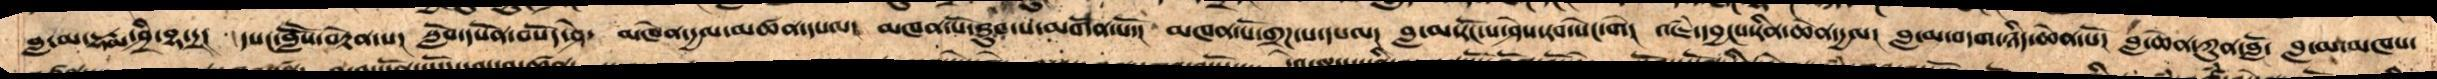བླ་མ་དྷརྨ་ཤྲཱི་བྷ་དྲ། དཔང་བླཽས་བརྟེན་པ། སློབ་དཔོན་བསོད་ཤེ་ མཁེན་ཆེན་དྱལ་མཚན་དཔལ། མཁན་པོ་ཐུབ་པ་མགོན་པོ་། མཁན་པོ་གྲཌ་པ་དཔལ། བླ་མ་རོང་པ་ཤེས་རབ་སེང་གེ། འཇཾ་དབྱངས་རིན་ཆེན་དྱལ། བླ་མ་བདག་ཉིད་ཆེན་པོ། བླ་ཆེན་ཀུན་བློ། བླ་མ་མཁས་
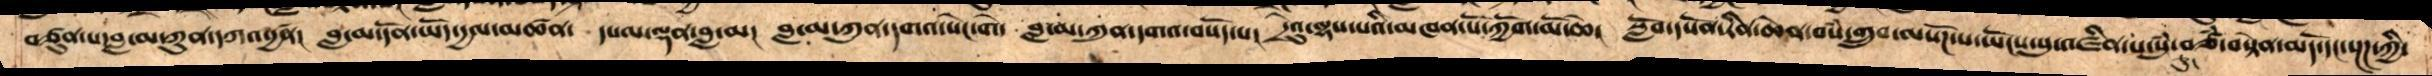བཙུན་པ་བླ་མ་ཀུན་དགའ་དྱཚན། བླ་མ་དོན་ཡོད་དྱལ་མཚན། དཔལ་ལྡན་བླ་མ། བླ་མ་ཀུན་དགའ་སེང་གེ། བླ་མ་ཀུན་དགའ་བསོད་པ། དྲེའུ་ལྷས་པའི་མཁན་པོ་ཀྱོག་མོ་ཆེ། སློབ་དཔོན་རིན་ཆེན་བསཾ་གྲུབ་ལསོཌ་པ་ཡོངས་སུ་འཛིན་པ་སུཾ་ཅུ་བཙཾ་བསྟེན་མདོ་དང་སྔཌ་ཀྱི་
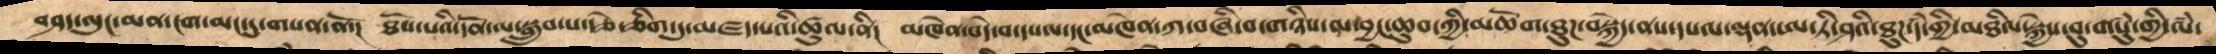བཤད་ལུང་མན་ངག་མང་དུ་གསན་ནོ་།  ཐོས་པའི་དོན་ལ་སྒྲུབ་པ་རྩེ་ཅིག་དུ་མཛད་པའི་ཚུལ་ནི།  མཁེན་བདེ་བ་དཔལ་དང་མཁེན་ཀ་བཞི་བ་གཉིས་ལ་བྱང་ཆུབ་ཀྱི་མཆོག་ཐུཌ་བསྐྱེད་ནས་དཔལ་ལྡན་ཨ་ཏི་ཤའི་ཐུཌ་དཾ་གྱི་མཐིལ་སྐྱེས་བུ་གསུཾ་གྱི་ལཾ་
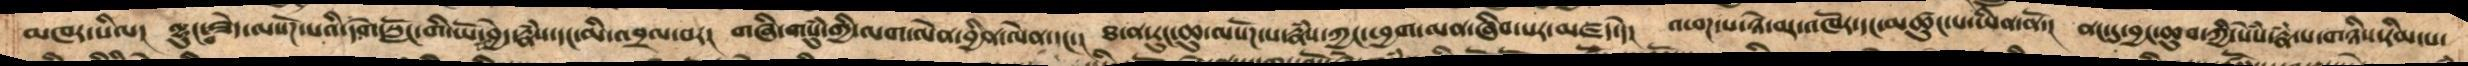མཁར་སིལ། ལྷུང་བཟེད་ལསོཌ་པའི་དགེ་སློང་གི་ཡོ་བྱེད་རྣཾས་དང་མི་འབྲལ་བར། གཞི་གསུཾ་གྱི་ལག་ལེན་བྱིན་ལེན་དང་། ཐ་ན་རུང་ཆུ་ལསོཌ་པ་རྣཾས་ཀྱང་ཕྱག་ལན་ཞིབ་པར་མཛད་དེ།  འཕཌ་པ་ཉེ་བར་འཁོར་དང་མཚུངས་པ་ཡིན་ནོ། ནང་དུ་བྱང་ཆུབ་ཀྱི་སེཾས་རྣཾ་པ་གཉིས་རིམ་པ་
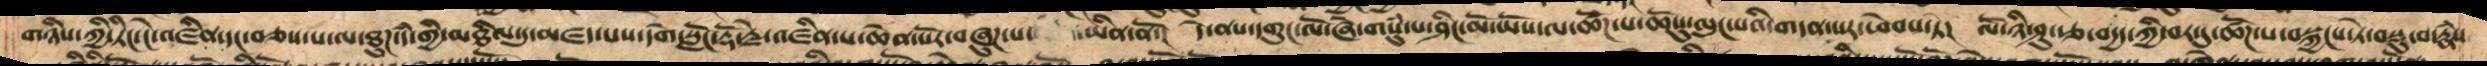གཉིས་ཀྱི་ཏིང་ངེ་འཛིན་དང་བཅས་པ་ལ་ཐུཌ་དཾ་གྱི་མཐིལ་དུ་མཛད་པས་དགེ་སློང་རྡོ་རྗེ་འཛིན་པ་ཆེན་པོར་བཞུཌ་པ་ཡིན་ནོ།  དེ་ནས་དགུང་ལོ་ཞེ་གསུཾ་པ་ཤིང་མོ་ཡོས་་ལ་ཚོཌ་པ་ཆོསུ་ལུང་པའི་གདན་་སར་ཕེབས་ཏེ།  ལོ་ཉི་ཤུ་རྩ་བདྱད་ཀྱི་བར་དུ་ཚོཌ་པ་བསྐྱངས་ཏེ་བསྡུ་བ་རྣཾས
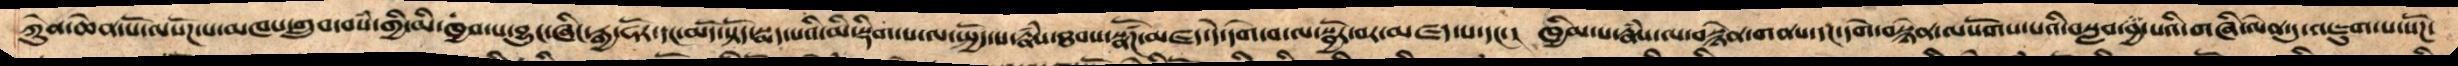ཀེུན་ཆེན་པོ་ལསོཌ་པ་མཁས་གྲུབ་བསཾ་གྱི་མི་ཁྱབ་པ་བྱུང་ཞིང་དྱ་ཧོར་དང་མདོ་སྟོད་སྨད་པའི་མི་སྡིག་པ་ལ་སྤྱོད་པ་རྣཾས་ཐབས་སྣཚོཌ་མཛད་དེ་དགེ་བ་ལ་སྦྱོར་བར་མཛད་པ་དང་།  ཁྱིམ་པ་རྣཾས་ལ་བསྙེན་གནས་དང་དགེ་བསྙེན་ལསོགས་པའི་བསླབ་བྱ་པའི་གཞི་ལེན་དུ་འཇུག་པ་སོཌ་་
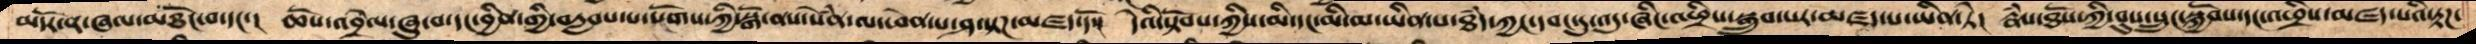མདོར་ན་ཞལ་མཐོང་བ་དང་།  ཆོས་འབྲེལ་ཞུ་བ་དང་བྱིན་གྱི་བརླབས་པ་སོགས་ཀྱི་སྒོ་ནས་སེནཾ་ལ་ཕེན་པ་ཤ་སྟཌ་མཛད་དོ་།  དེའི་སྟོབས་ཀྱིས་མི་དང་མི་མ་ཡིན་པ་ཐཾད་ཀྱང་དབང་དུ་འདུ་ཞིང་འཕྲིས་སྒྲུབ་པར་མཛད་པ་ཡིན་ཏེ།  རྣཾས་ཐོས་ཀྱི་བུས་སྲུང་སྐྱོབས་དང་འཕྲིས་མཛད་པའི་རྟཌ་
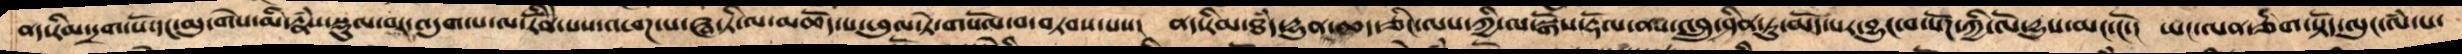ནད་རིམ་དྲག་པོ་དང་མུ་གེས་མི་རྣཾས་སྡུལ་བར་འདུག་པ་ལ་རིནོེ་པས་འཕཌ་པ་ཝ་ཏི་ལ་མཆོད་པ་ཕུལ་ཏེ་གསོལ་བ་བཏབས་པས།  ནད་རིམ་ཐཾད་དྱུན་ཆད་ཅིང་ལས་ཀྱི་མ་སྒོཾས་རྡོལ་ནས་འབྲུ་ཤིན་ཏུ་མོད་པར་བྱུང་བ་སོཌ་ཀྱི་ལོ་དྱུས་མང་ངོ་།  ཡང་ལན་ཅིག་སྟོད་ལུང་ལཾ་པ་
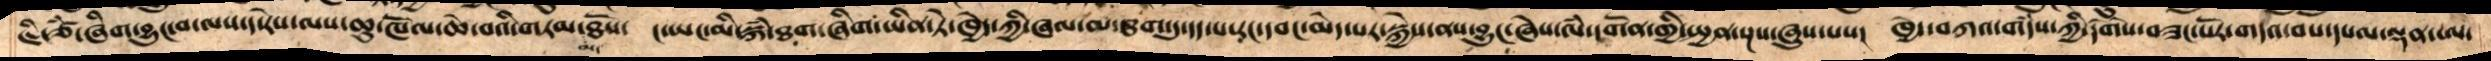ཇི་ཙཾ་ཞིག་བྱུང་བ་ལས་ད་རེས་ལས་ཆུ་ཁོལ་ཆེ་བའི་གཏམ་ཐོས་  ང་ཡང་མི་སྐཾ་ཐག་ཞིག་ཡིན་ཏེ་ཁྱེད་ཀྱི་ཞལ་མ་ཐག་དུ་དད་པ་རང་དབང་མེད་པར་སྐྱེས་ནས་བྱུང་ཞེས་ལཾ་དགོན་གྱི་སྤྱན་སྔས་ཞུས་པས།  ཁྱེད་བཀའ་གདཾས་ཀྱི་དགཻས་བཟང་པོར་གདའ་བས་དཔལ་ལྡན་ཨ་
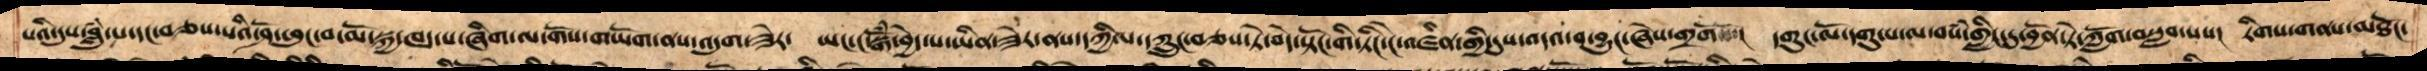པའི་དུས་བླུཾ་པ་དང་བཅས་པའི་ཤོ་ཕུང་བ་མོ་སྐྱ་ཁད་པ་ཞིག་ལ་གོས་གཡོག་ནས་འདུག་ཟེར་  ཡང་ང་སྒོཾ་བྱེད་པ་ཡིན་ཟེར་ནས་དཀྱིལ་དཀྲུང་བཅས་ཏེ་བདེ་སྟོང་གི་ཏིང་ངེ་འཛིན་གྱི་དུས་འདའ་བ་བྱུང་ཞེས་གྲགསོ་།  དགུང་མོ་དགུ་པ་ལ་བསཾ་གླིང་དུ་བྱོན་ཏེ་ཀློག་བསླབ་པས།  རིགས་གནས་མཐོང་
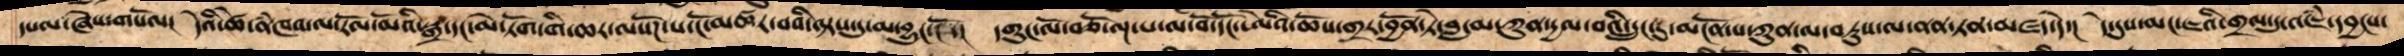དཔལ་ཞེས་གསོལ།  དེའི་ཚེ་ནཾཁའ་ལ་རོལ་མོའི་སྒྲ་དང་མེ་ཏོག་གི་ཆར་ལསོཌ་པ་ངོ་མཚར་བའི་ལྟས་དུ་མ་བྱུང་ངོ་།  དགུང་ལོ་བཅོ་ལྔ་པ་ལ་བོ་དོང་ཨེའི་ཆོས་གྲར་བྱོན་ཏེ་བླ་མ་ཀུན་དྱལ་བའི་དྲུང་དུ་མངོན་པ་ཀུན་ལ་བཏུས་ལ་ནན་ཏན་མཛད་དེ།  དེ་དུས་མང་ཇའི་གྲལ་དུ་འཇཾ་དབྱངས་
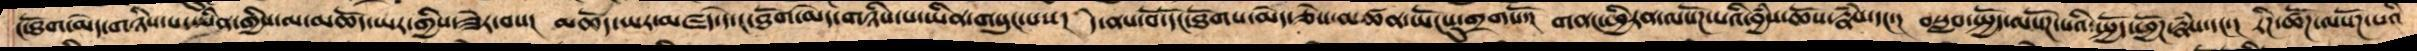ང་ཐོག་མེད་གཉིས་པ་ཡིན་གྱིས་ལ་མཆོད་ཡར་གྱིས་ཟེར་བས།  མཆོད་ཡར་མཛད་དེ་ང་ཐོག་མེད་གཉིས་པ་ཡིན་གསུང་པས།  དེ་ནས་བོ་དོང་ཐོགས་མེད་ཅེས་མཚན་ཡོངསུ་གྲགསོ་།  གནང་ཕྱིརན་ལསོཌ་པའི་བྱཾས་ཆོས་རྣཾས་དང་།  བསླབ་སྤྱོད་ལསོཌ་པའི་སྤྱོད་ཕྱོཌ་རྣཾས་དང་།  རིཌ་ཚོཌ་ལསོཌ་པའི
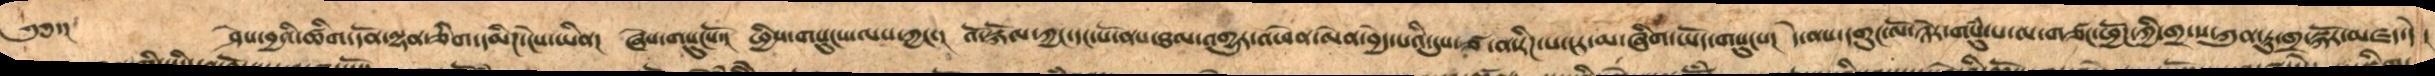༄༅་།   ཤེས་བྱའི་ཚིག་དོན་ལྷན་ཅིག་དམིཌ་ངེས་ཡིན།  ཞེས་གསུངསོ།  ཕྱིས་གསུངས་ལས་ཀྱང་།  འོ་སྐོལ་ཀྱང་དང་པོ་ནས་ཐལ་འགྱུར་འཕེན་ལེན་བྱེད་པའི་དུས་ཙ་ན་རིཌ་པ་ངར་མ་ཞིག་ཡོད་གསུངས།  དེ་ནས་དགུང་ལོ་ཉེར་གསུཾ་པ་ལ་གཙང་ཕྱོཌ་ཀྱི་གྲ་པ་ཀུན་ཏུ་གྲ་སྐོར་མཛད་དེ་
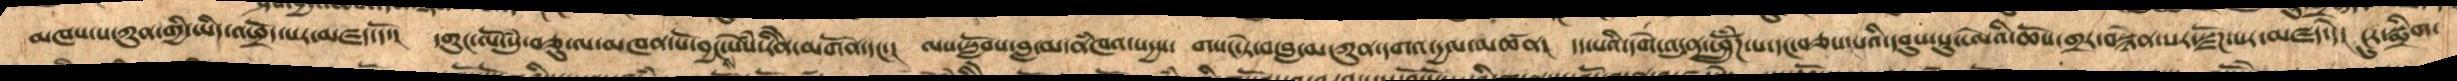མཁས་པ་ཀུན་གྱི་ཡིད་འཕྲོད་པར་མཛད་དོ།  དགུང་ལོ་སུཾ་བཅུ་ལ་མཁན་པོ་བྱང་སེཾས་རིེན་མགོན་དང་།  ལས་སློབས་བླ་མ་ནཾམཁའ་སདྱས་  གསང་ཏེ་བ་བླ་མ་ཀུན་དགའ་དྱལ་མཚན།  དད་པའི་དགེ་འདུན་ཕྲོུཾཌ་པ་དང་བཅས་པའི་དབུས་སུ་ཨེའི་ཆོས་གྲར་བསྙེན་པར་སྫོཌ་པར་མཛད་དེ།  ངུར་སྨྲིག་
